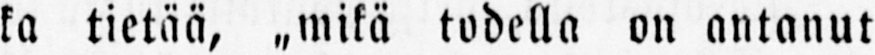ka tietää, „mikä todella on antanut
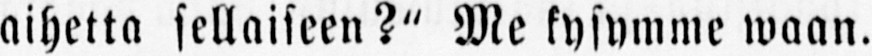aihetta sellaiseen?" Me kysymme waan.
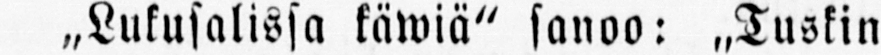„Lukusalissa käwiä" sanoo: „Tuskin
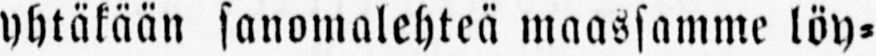yhtäkään sanomalehteä maassamme löy-
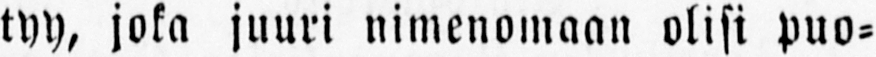tyy, joka juuri nimenomaan olisi puo-
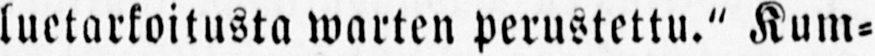luetarkoitusta warten perustettu." Kum-
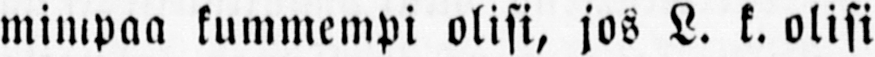mimpaa kummempi olisi, jos L. k. olisi
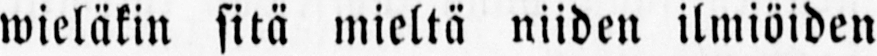wieläkin sitä mieltä niiden ilmiöiden
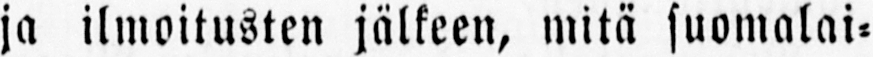ja ilmoitusten jälkeen, mitä suomalai-
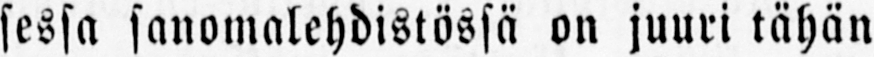sessa sanomalehdistössä on juuri tähän
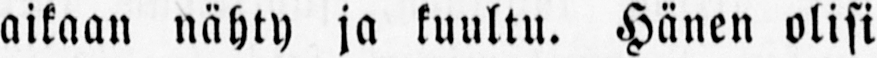aikaan nähty ja kuultu. Hänen olisi
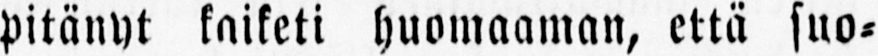pitänyt kaiketi huomaaman, että suo-
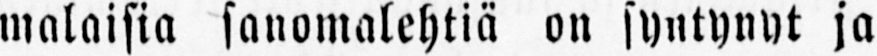malaisia sanomalehtiä on syntynyt ja
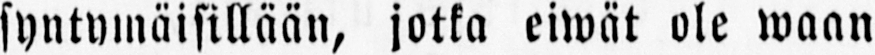syntymäisillään, jotka eiwät ole waan
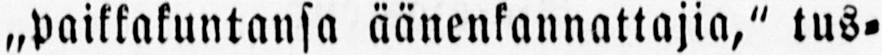„paikkakuntansa äänenkannattajia," tus-
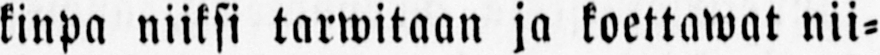kinpa niiksi tarwitaan ja koettawat nii-
